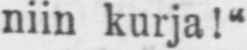niin kurja!"
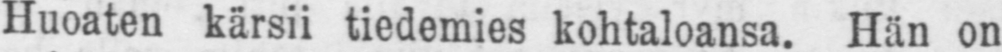Huoaten kärsii tiedemies kohtaloansa. Hän on
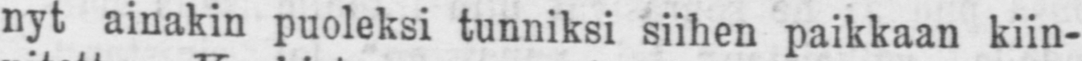nyt ainakin puoleksi tunniksi siihen paikkaan kiin-
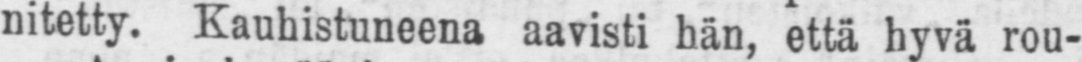nitetty. Kauhistuneena aavisti hän, että hyvä rou-
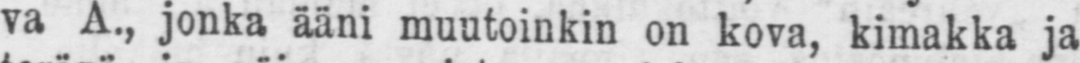va jonka ääni muutoinkin on kova, kimakka ja
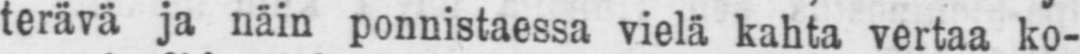terävä ja näin ponnistaessa vielä kahta vertaa ko-
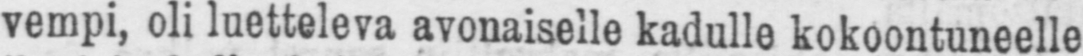vempi, oli luetteleva avonaiselle kadulle kokoontuneelle
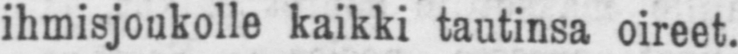ihmisjoukolle kaikki tautinsa oireet.
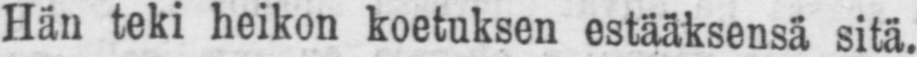Hän teki heikon koetuksen estääksensä sitä.
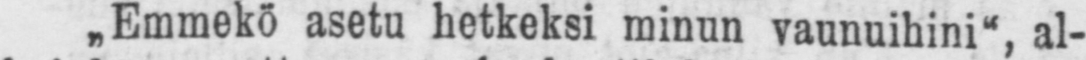˶Emmekö asetu hetkeksi minun vaunuihini", al-
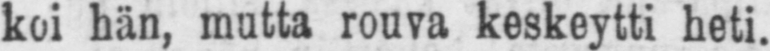koi hän, mutta rouva keskeytti heti.
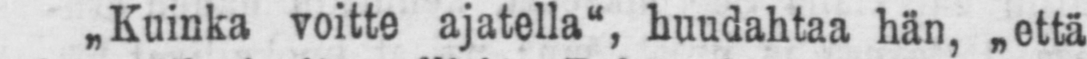˶Kuinka voitte ajatella", huudahtaa hän, „että
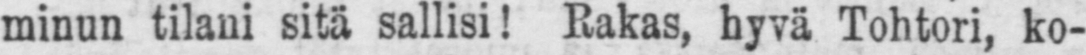minun tilani sitä sallisi! Rakas, hyvä Tohtori, ko-
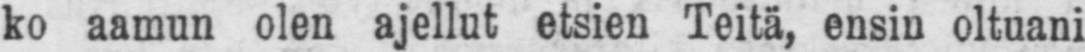ko aamun olen ajellut otsien Teitä, ensin oltuani
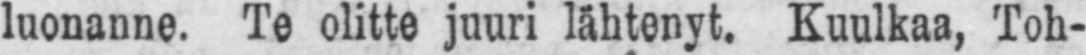luonanne. Te olitte juuri Kuulkaa, Toh-
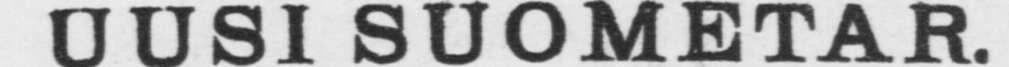UUSI SUOMETAR.
